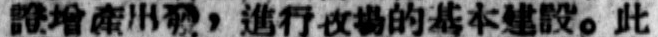證增產出發，進行牧場的基本建設。此
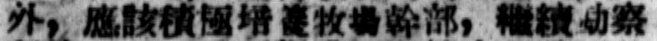外，應該積極培養牧場幹部，繼續勘察
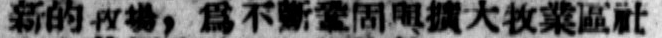新的牧場，爲不斷鞏固與擴大牧業區社
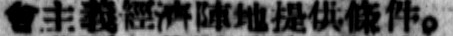會主義經濟陣地提供條件。
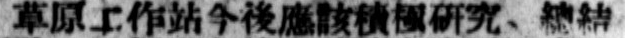草原工作站今後應該積極研究、總結
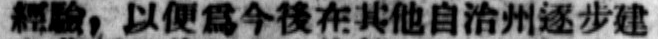經驗，以便爲今後在其他自治州逐步建
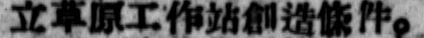立草原工作站創造條件。
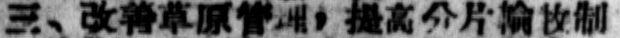三、改善草原管理，提高分片輪牧制
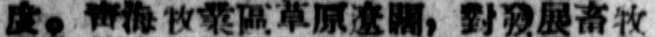度。靑海牧業區草原遼闊，對發展畜牧
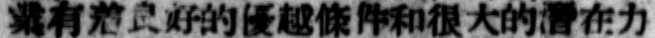業有着良好的優越條件和很大的潛在力
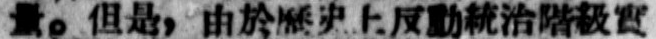量。但是，由於歷史上反動統治階級實
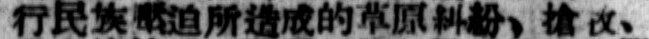行民族壓迫所造成的草原糾紛、搶牧、
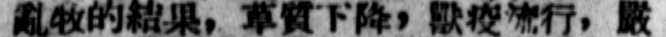亂牧的結果，草質下降，獸疫流行，嚴
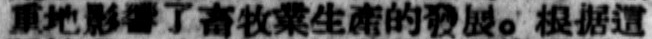重地影響了畜牧業生產的發展。根據這
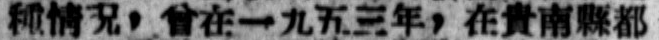種情況，曾在一九五三年，在貴南縣都
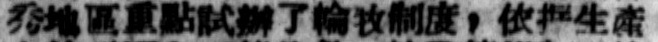秀地區重點試辦了輪牧制度，依據生產
